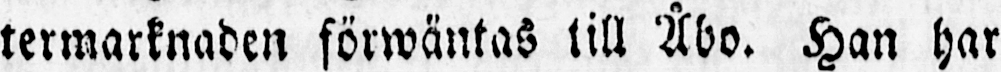termarknaden förwäntas till Åbo. Han har
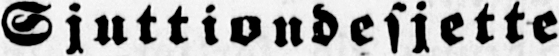Sjuttiondesjette
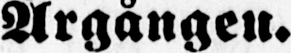Årgången.
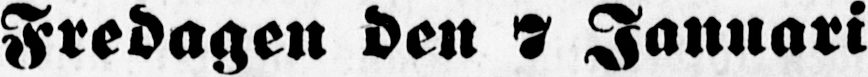Fredagen den 7 Januari
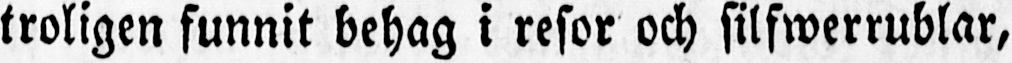troligen funnit behag i resor och silfwerrublar,
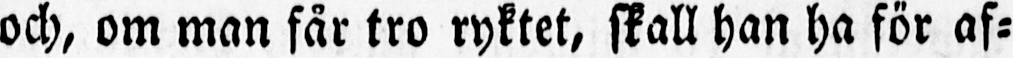och, om man får tro ryktet, skall han ha för af-
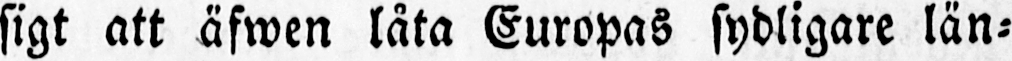sigt att äfwen låta Europas sydligare län-
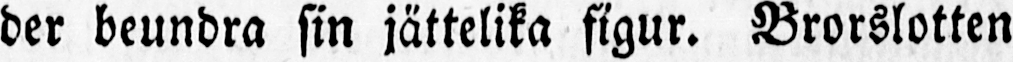der beundra sin jättelika figur. Brorslotten
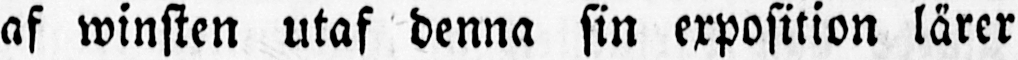af winsten utaf denna sin exposition lärer
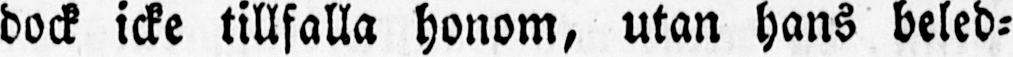dock icke tillfalla honom, utan hans beled-
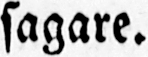sagare.
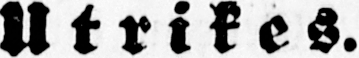Utrikes.
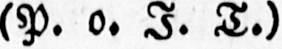(P. o. I. T.)
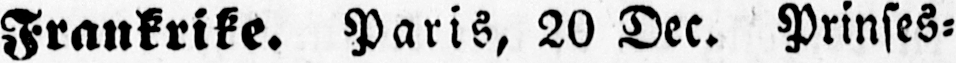Frankrike. Paris, 20 Dec. Prinses-
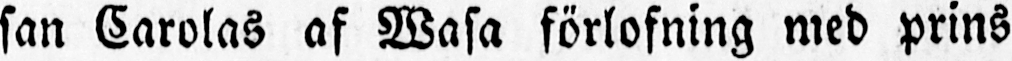san Carolas af Wasa förlofning med prins
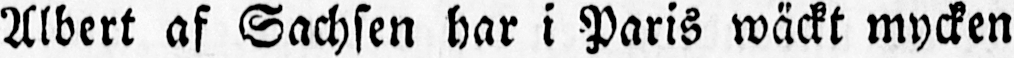Albert af Sachsen har i Paris wäckt mycken
